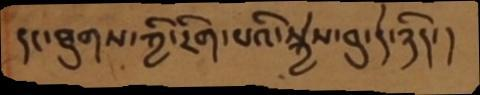དང་ཐུགས་ཀྱི་རིག་པའི་སྐྱེས་བུ་དེ་ཉིད་།
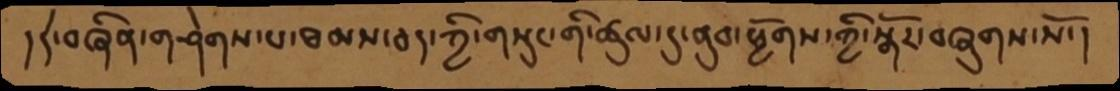།དེ་བཞིན་གཤེགས་པ་ཐམས་ཅད་ཀྱི་གསུང་གི་ཚུལ་དུ་ནུབ་ཕྱོགས་ཀྱི་སྒོར་བཞུགས་སོ་།
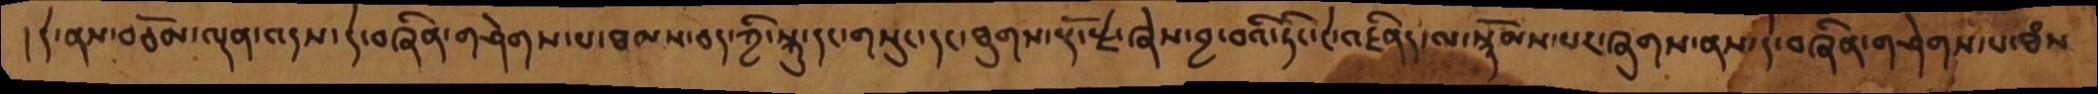།དེ་ནས་བཅོམ་ལྡན་འདས་དེ་བཞིན་གཤེགས་པ་ཐམས་ཅད་ཀྱི་སྐུ་དང་གསུང་དང་ཐུགས་རྡོ་རྗེ་ཞེས་བྱ་བའི་ཏིང་ངེ་འཛིན་ལ་སྙོམས་པར་ཞུགས་ནས་དེ་བཞིན་གཤེགས་པ་ཐཾས་
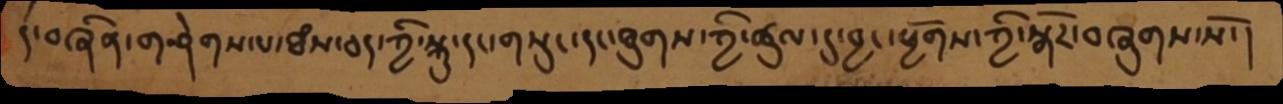དེ་བཞིན་གཤེགས་པ་ཐཾས་ཅད་ཀྱི་སྐུ་དང་གསུང་དང་ཐུགས་ཀྱི་ཚུལ་དུ་བྱང་ཕྱོགས་ཀྱི་སྒོར་བཞུགས་སོ་།
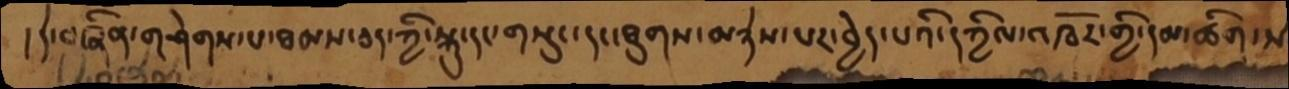།དེ་བཞིན་གཤེགས་པ་ཐམས་ཅད་ཀྱི་སྐུ་དང་གསུང་དང་ཐུགས་མཉེས་པར་བྱེད་པའི་དཀྱིལ་འཁོར་གྱི་དམ་ཚིག་ས
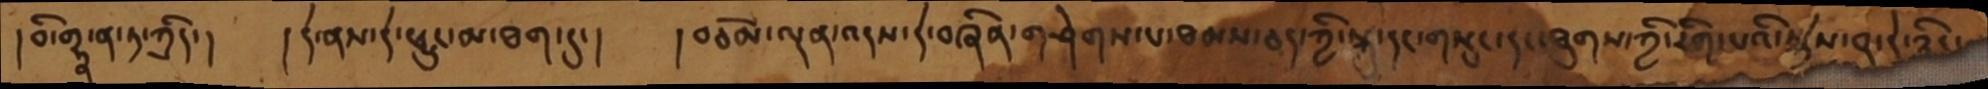།བི་གྷྣ་ན་ཏ་ཀྲིད་། །དེ་ནས་དེ་ཕྱུང་མ་ཐག་དུ།  །བཅོམ་ལྡན་འདས་དེ་བཞིན་གཤེགས་པ་ཐམས་ཅད་ཀྱི་སྐུ་དང་གསུང་དང་ཐུགས་ཀྱི་རིག་པའི་སྐྱེས་བུ་དེ་ཉིད
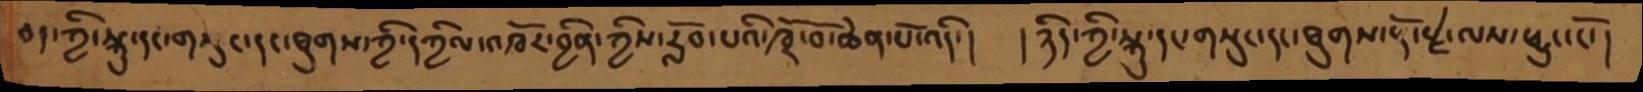ཅད་ཀྱི་སྐུ་དང་གསུང་དང་ཐུགས་ཀྱི་དཀྱིལ་འཁོར་བྱིན་ཀྱིས་རློབ་པའི་ཁྲོ་བོ་ཆེན་པོ་འདི་།  ། ཉིད་ཀྱི་སྐུ་དང་གསུང་དང་ཐུགས་རྡོ་རྗེ་ལས་ཕྱུང་ངོ་།
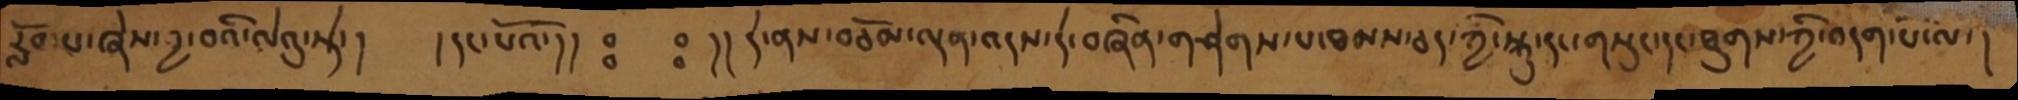རློབས་ཞེས་བྱ་བའི་ལེའུ་སྟེ་།  ། དང་པོའོ་ །། ཿཿ   ཿ   །།  དེ་ནས་བཅོམ་ལྡན་འདས་དེ་བཞིན་གཤེགས་པ་ཐམས་ཅད་ཀྱི་སྐུ་དང་གསུང་དང་ཐུགས་ཀྱི་བདག་པོ་ལ་།
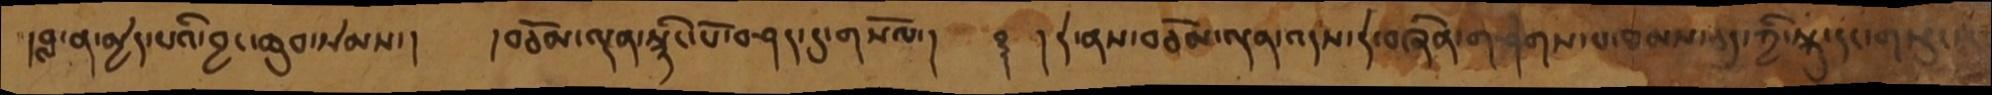།བླ་ན་མྱེད་པའི་བྱང་ཆུབ་སེམས་།  །བཅོམ་ལྡན་སྙིང་པོ་བཤད་དུ་གསོལ།  ༈  །  །དེ་ནས་བཅོམ་ལྡན་འདས་དེ་བཞིན་གཤེགས་པ་ཐམས་ཅད་ཀྱི་སྐུ་དང་གསུང་དང་
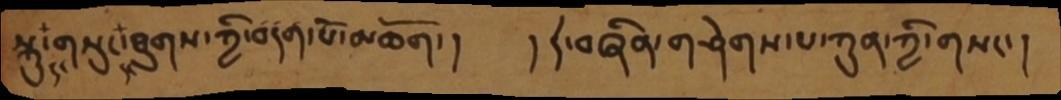སྐུ་དང་གསུང་དང་ཐུགས་ཀྱི་བདག་པོ་མཆོག་།    །དེ་བཞིན་གཤེགས་པ་ཀུན་ཀྱི་གསང་།
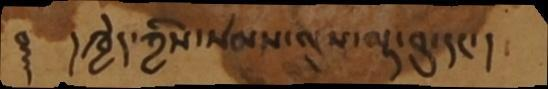༈  །ཁྱེད་ཀྱིས་སེམས་ལུས་ལྟ་བུ་དང་།
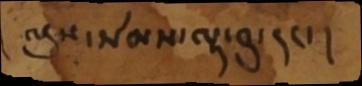ལུས་སེམས་ལྟ་བུ་དང་།
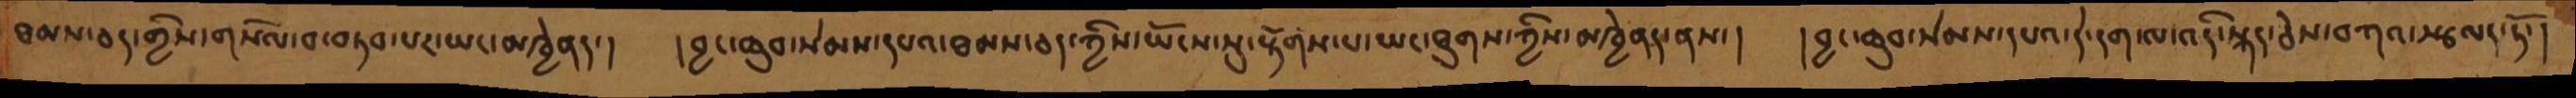ཐམས་ཅད་གྱིས་གསོལ་བ་བཏབ་པར་ཡང་མཁྱེནད་།    ། བྱང་ཆུབ་སེམས་དཔའ་ཐམས་ཅད་ཀྱིས་ཡོངས་སུ་རྟོགས་པ་ཡང་ཐུགས་ཀྱིས་མཁྱེནད་ནས་།  །བྱང་ཆུབ་སེམས་དཔའ་དེ་དག་ལ་འདི་སྐད་ཅེས་བཀའ་སྩལད་ཏོ་།
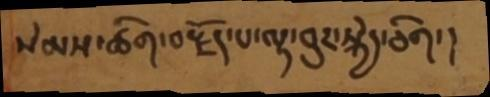སེམས་ཚིག་བརྗོད་པ་ལྟ་བུར་སྐྱེད་ཅིག་།
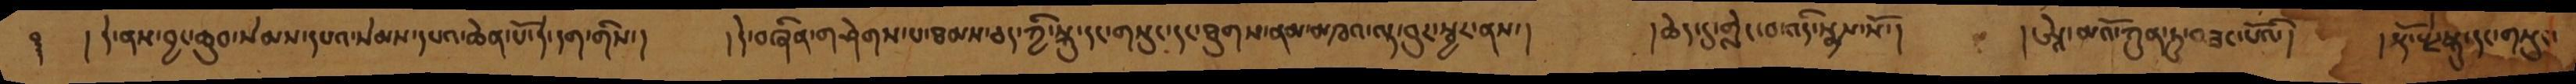༈ །དེ་ནས་བྱང་ཆུབ་སེམས་དཔའ་སེམས་དཔའ་ཆེན་པོ་དེ་དག་གིས།  །དེ་བཞིན་གཤེགས་པ་ཐམས་ཅད་ཀྱི་སྐུ་དང་གསུང་དང་ཐུགས་ནམ་མཁའ་ལྟ་བུར་སྦྱར་ནས་།   །ཆེད་དུ་གླེང་བ་འདི་སྨྲས་སོ།   །ཨཱེ་མའོ་ཀུན་ཏུ་བཟང་པོའི་།  །རྡོ་རྗེ་སྐུ་དང་གསུང་
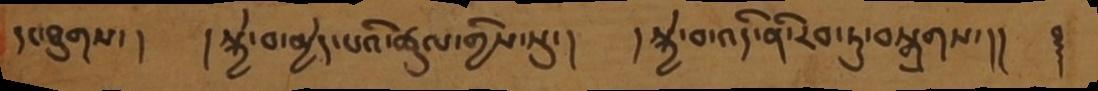དང་ཐུགས་ །   །སྐྱེ་བ་མྱེད་པའི་ཚུལ་གྱིས་སུ་།    །སྐྱེ་བ་འདི་ནི་རབ་ཏུ་བསྒྲགས་།།
